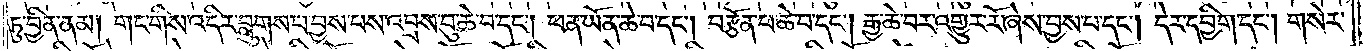ཏུ་བྱིན་ནམ། གང་གིས་འདིར་བླུགས་པ་བྱས་པས་འབྲས་བུ་ཆེ་བ་དང༌། ཕན་ཡོན་ཆེ་བ་དང༌། བརྩོན་པ་ཆེ་བ་དང༌། རྒྱ་ཆེ་བར་འགྱུར་རོ་ཞེས་བྱས་པ་དང༌། དེར་དབྱིག་དང༌། གསེར་
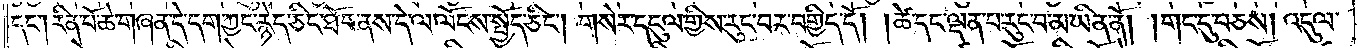དང༌། རིན་པོ་ཆེ་གཞན་དེ་དག་ཀྱང་རྙེད་ཅིང་ཐོབ་ནས་དེ་ལ་ལོངས་སྤྱོད་ཅིང༌། གསེར་དངུལ་གྱིས་རུང་བར་བགྱིད་དོ། །ཚེ་དང་ལྡན་པ་རུང་བ་མ་ཡིན་ནོ། །གང་དུ་བཅས། འདུལ་
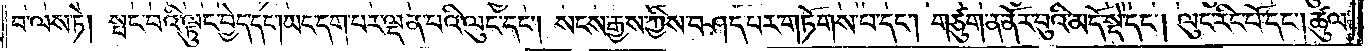བ་ལས་ཏེ། སྤང་བའི་ལྟུང་བྱེད་དང༌། ཡང་དག་པར་ལྡན་པའི་ལུང་དང༌། སངས་རྒྱས་ཀྱིས་བཤད་པར་གཏོགས་པ་དང༌། གཙུག་ན་ནོར་བུའི་མདོ་སྡེ་དང༌། ལུང་རིང་པོ་དང༌། ཚུལ་
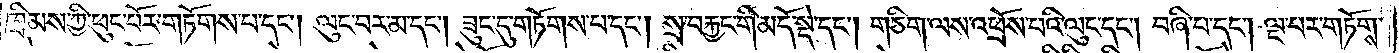ཁྲིམས་ཀྱི་ཕུང་པོར་གཏོགས་པ་དང༌། ལུང་བར་མ་དང༌། ཟུང་དུ་གཏོགས་པ་དང༌། སྲ་བརྐྱང་གི་མདོ་སྡེ་དང༌། གཅིག་ལས་འཕྲོས་པའི་ལུང་དང༌། བཞི་པ་དང༌། ལྔ་པར་གཏོགས་
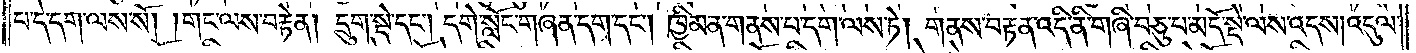པ་དེ་དག་ལས་སོ། །གང་ལས་བརྟེན། དྲུག་སྡེ་དང༌། དགེ་སློང་གཞན་དག་དང༌། ཁྱིམ་ན་གནས་པ་དག་ལས་ཏེ། གནས་བརྟན་འདི་ནི་གཞི་བཅུ་པ་མདོ་སྡེ་ལས་འདས། འདུལ་
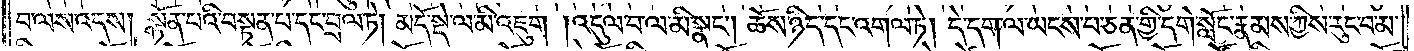བ་ལས་འདས། སྟོན་པའི་བསྟན་པ་དང་བྲལ་ཏེ། མདོ་སྡེ་ལ་མི་འཇུག །འདུལ་བ་ལ་མི་སྣང༌། ཆོས་ཉིད་དང་འགལ་ཏེ། དེ་དག་ལ་ཡངས་པ་ཅན་གྱི་དགེ་སློང་རྣམས་ཀྱིས་རུང་བ་མ་
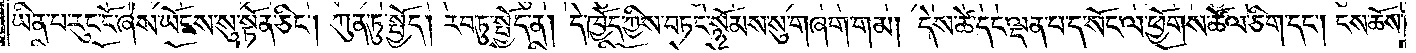ཡིན་པ་རུང་ངོ་ཞེས་ཡོངས་སུ་སྟོན་ཅིང༌། ཀུན་ཏུ་སྤྱོད། རབ་ཏུ་སྤྱོད་ན། དེ་ཁྱོད་ཀྱིས་བཏང་སྙོམས་སུ་གཞག་གམ། དེས་ཚེ་དང་ལྡན་པ་ད་སོང་ལ་ཕྱོགས་ཚོལ་ཅིག་དང༌། ངས་ཆོས་
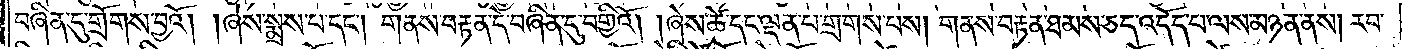བཞིན་དུ་གྲོགས་བྱའོ། །ཞེས་སྨྲས་པ་དང༌། གནས་བརྟན་དེ་བཞིན་དུ་བགྱིའོ། །ཞེས་ཚེ་དང་ལྡན་པ་གྲགས་པས། གནས་བརྟན་ཐམས་ཅད་འདོད་པ་ལས་མཉན་ནས། རབ་
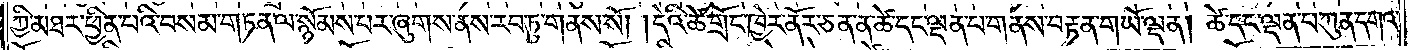ཀྱི་མཐར་ཕྱིན་པའི་བསམ་གཏན་ལ་སྙོམས་པར་ཞུགས་ནས་རབ་ཏུ་གནས་སོ། །དེའི་ཚེ་གྲོང་ཁྱེར་ནོར་ཅན་ན་ཚེ་དང་ལྡན་པ་གནས་བརྟན་གཡོ་ལྡན། ཚེ་དང་ལྡན་པ་ཀུན་དགའ་
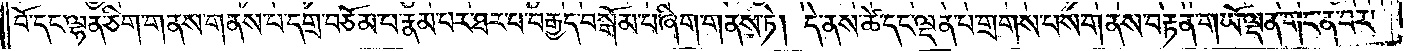བོ་དང་ལྷན་ཅིག་གནས་གནས་པ་དགྲ་བཅོམ་པ་རྣམ་པར་ཐར་པ་བརྒྱད་བསྒོམ་པ་ཞིག་གནས་ཏེ། དེ་ནས་ཚེ་དང་ལྡན་པ་གྲགས་པས་གནས་བརྟན་གཡོ་ལྡན་གང་ན་བར་
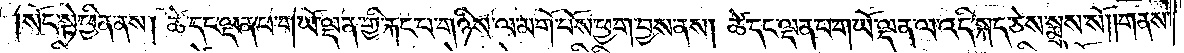སོང་སྟེ་ཕྱིན་ནས། ཚེ་དང་ལྡན་པ་གཡོ་ལྡན་གྱི་རྐང་པ་གཉིས་ལ་མགོ་བོས་ཕྱག་བྱས་ནས། ཚེ་དང་ལྡན་པ་གཡོ་ལྡན་ལ་འདི་སྐད་ཅེས་སྨྲས་སོ། །གནས་
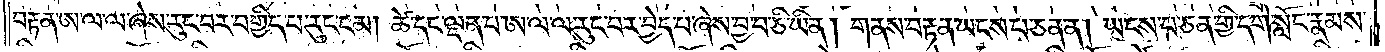བརྟན་ཨ་ལ་ལ་ཞེས་རུང་བར་བགྱིད་པ་རུང་ངམ། ཚེ་དང་ལྡན་པ་ཨ་ལ་ལ་རུང་བར་བྱེད་པ་ཞེས་བྱ་བ་ཅི་ཡིན། གནས་བརྟན་ཡངས་པ་ཅན་ན། ཡངས་པ་ཅན་གྱི་དགེ་སློང་རྣམས་
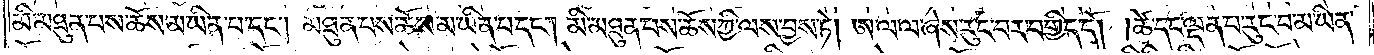མི་མཐུན་པས་ཆོས་མ་ཡིན་པ་དང༌། མཐུན་པས་ཆོས་མ་ཡིན་པ་དང༌། མི་མཐུན་པས་ཆོས་ཀྱི་ལས་བྱས་ཏེ། ཨ་ལ་ལ་ཞེས་རུང་བར་བགྱིད་དོ། །ཚེ་དང་ལྡན་པ་རུང་བ་མ་ཡིན་
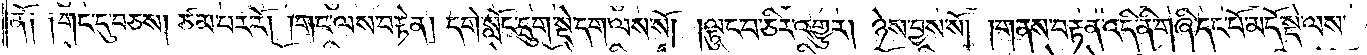ནོ། །གང་དུ་བཅས། ཙམ་པར་རོ། །གང་ལས་བརྟེན། དགེ་སློང་དྲུག་སྡེ་དག་ལས་སོ། །ལྟུང་བ་ཅིར་འགྱུར། ཉེས་བྱས་སོ། །གནས་བརྟན་འདི་ནི་གཞི་དང་པོ་མདོ་སྡེ་ལས་
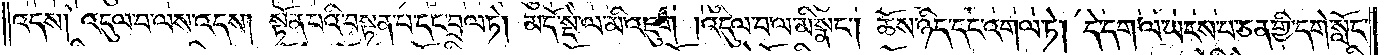འདས། འདུལ་བ་ལས་འདས། སྟོན་པའི་བསྟན་པ་དང་བྲལ་ཏེ། མདོ་སྡེ་ལ་མི་འཇུག །འདུལ་བ་ལ་མི་སྣང༌། ཆོས་ཉིད་དང་འགལ་ཏེ། དེ་དག་ལ་ཡངས་པ་ཅན་གྱི་དགེ་སློང་
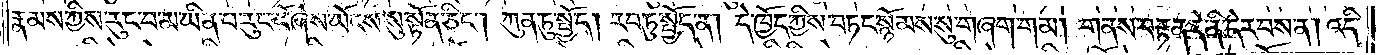རྣམས་ཀྱིས་རུང་བ་མ་ཡིན་པ་རུང་ངོ་ཞེས་ཡོངས་སུ་སྟོན་ཅིང༌། ཀུན་ཏུ་སྤྱོད། རབ་ཏུ་སྤྱོད་ན། དེ་ཁྱོད་ཀྱིས་བཏང་སྙོམས་སུ་གཞག་གམ། གནས་བརྟན་དེ་ནི་དེར་བས་ན། འདི་
